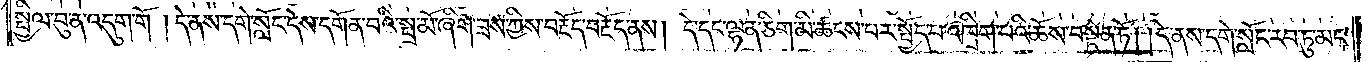སྤྱིལ་བུ་ན་འདུག་གོ །དེ་ནས་དགེ་སློང་དེས་དགོན་བའི་སྤྲ་མོ་ཞིག་ཟས་ཀྱིས་བརྔོད་བརྗོད་ནས། དེ་དང་ལྷན་ཅིག་མི་ཚངས་པར་སྤྱོད་པ་འཁྲིག་པའི་ཆོས་བསྟེན་ཏོ། །དེ་ནས་དགེ་སློང་རབ་ཏུ་མང་
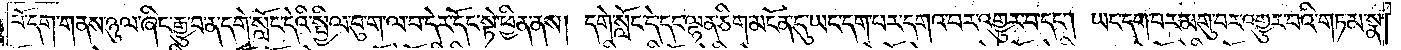པོ་དག་གནས་ཉུལ་ཞིང་རྒྱུ་བ་ན་དགེ་སློང་དེའི་སྤྱིལ་བུ་ག་ལ་བ་དེར་དོང་སྟེ་ཕྱིན་ནས། དགེ་སློང་དེ་དང་ལྷན་ཅིག་མངོན་དུ་ཡང་དག་པར་དགའ་བར་འགྱུར་བ་དང༌། ཡང་དག་པར་མགུ་བར་འགྱུར་བའི་གཏམ་སྣ་
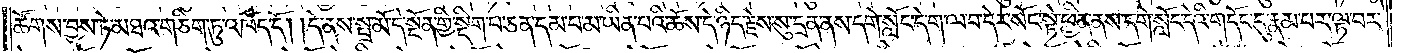ཚོགས་བྱས་ཏེ་མཐའ་གཅིག་ཏུ་འཁོད་དོ། །དེ་ནས་སྤྲ་མོ་དེ་སྔོན་གྱི་སྡིག་པ་ཅན་དམ་པ་མ་ཡིན་པའི་ཆོས་དེ་ཉིད་རྗེས་སུ་དྲན་ནས་དགེ་སློང་དེ་ག་ལ་བ་དེར་སོང་སྟེ་ཕྱིན་ནས་དགེ་སློང་དེའི་གདོང་དུ་རྣམ་པར་ལྟ་བར་
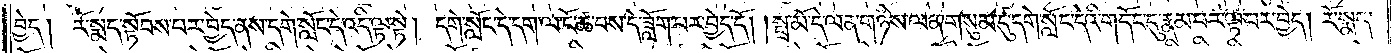བྱེད། རོ་སྨད་སྟོབས་པར་བྱེད་ནས་དགེ་སློང་དེ་འདི་ལྟ་སྟེ། དགེ་སློང་དེ་དག་ལ་ངོ་ཚ་བས་དེ་ཟློག་པར་བྱེད་དོ། །སྤྲ་མོ་དེ་ལན་གཉིས་ལན་གསུམ་དུ་དགེ་སློང་དེའི་གདོང་དུ་རྣམ་པར་ལྟ་བར་བྱེད། རོ་སྨད་
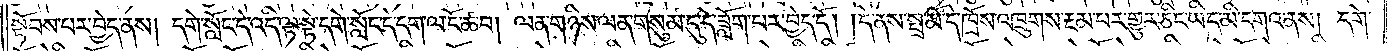སྟོབས་པར་བྱེད་ནས། དགེ་སློང་དེ་འདི་ལྟ་སྟེ་དགེ་སློང་དེ་དག་ལ་ངོ་ཚ་བ། ལན་གཉིས་ལན་གསུམ་དུ་དེ་ཟློག་པར་བྱེད་དོ། །དེ་ནས་སྤྲ་མོ་དེ་ཁྲོས་འཁྲུགས་རྔམ་པར་གྱུར་ཅིང་ཡིད་མི་དགའ་ནས། དགེ་
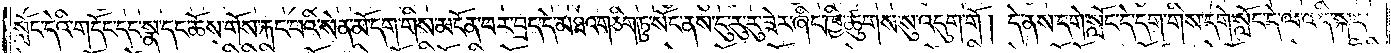སློང་དེའི་གདོང་དང་སྣ་དང་ཆོས་གོས་རྐང་པའི་སེན་མོ་དག་གིས་མངོན་པར་བྲད་དེ་མཐའ་གཅིག་ཏུ་སོང་ནས་ངུ་རུ་རུ་ཟེར་ཞིང་ཁྱི་ཚུགས་སུ་འདུག་གོ །དེ་ནས་དགེ་སློང་དེ་དག་གིས་དགེ་སློང་དེ་ལ་འདི་སྐད་
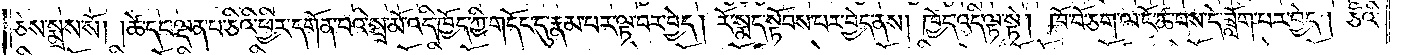ཅེས་སྨྲས་སོ། །ཚེ་དང་ལྡན་པ་ཅིའི་ཕྱིར་དགོན་པའི་སྤྲ་མོ་འདི་ཁྱོད་ཀྱི་གདོང་དུ་རྣམ་པར་ལྟ་བར་བྱེད། རོ་སྨད་སྟོབས་པར་བྱེད་ནས། ཁྱོད་འདི་ལྟ་སྟེ། ཁོ་བོ་ཅག་ལ་ངོ་ཚ་བས་དེ་ཟློག་པར་བྱེད། ཅིའི་
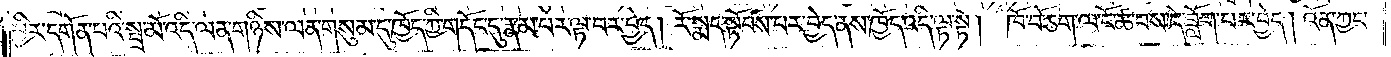ཕྱིར་དགོན་པའི་སྤྲ་མོ་འདི་ལན་གཉིས་ལན་གསུམ་དུ་ཁྱོད་ཀྱི་གདོང་དུ་རྣམ་པར་ལྟ་བར་བྱེད། རོ་སྨད་སྟོབས་པར་བྱེད་ནས་ཁྱོད་འདི་ལྟ་སྟེ། ཁོ་བོ་ཅག་ལ་ངོ་ཚ་བས་དེ་ཟློག་པར་བྱེད། འོན་ཀྱང་
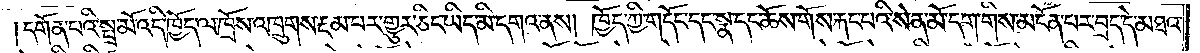དགོན་པའི་སྤྲ་མོ་འདི་ཁྱོད་ལ་ཁྲོས་འཁྲུགས་རྔམ་པར་གྱུར་ཅིང་ཡིད་མི་དགའ་ནས། ཁྱོད་ཀྱི་གདོང་དང་སྣ་དང་ཆོས་གོས་རྐང་པའི་སེན་མོ་དག་གིས་མངོན་པར་བྲད་དེ་མཐའ་
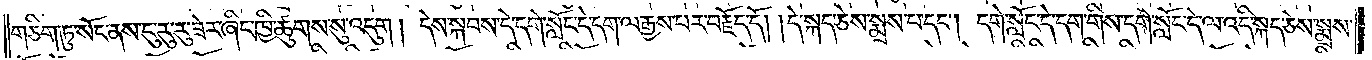གཅིག་ཏུ་སོང་ནས་ངུ་རུ་རུ་ཟེར་ཞིང་ཁྱི་ཚུགས་སུ་འདུག །དེས་སྐབས་དེ་དགེ་སློང་དེ་དག་ལ་རྒྱས་པར་བརྗོད་དོ། །དེ་སྐད་ཅེས་སྨྲས་པ་དང༌། དགེ་སློང་དེ་དག་གིས་དགེ་སློང་དེ་ལ་འདི་སྐད་ཅེས་སྨྲས་
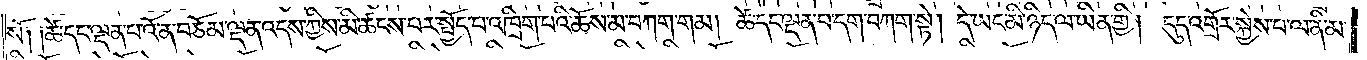སོ༑ ༑ཚེ་དང་ལྡན་པ་འོ་ན་བཅོམ་ལྡན་འདས་ཀྱིས་མི་ཚངས་པར་སྤྱོད་པ་འཁྲིག་པའི་ཆོས་མ་བཀག་གམ། ཚེ་དང་ལྡན་པ་དག་བཀག་སྟེ། དེ་ཡང་མི་ཉིད་ལ་ཡིན་གྱི། དུད་འགྲོར་སྐྱེས་པ་ལ་ནི་མ་
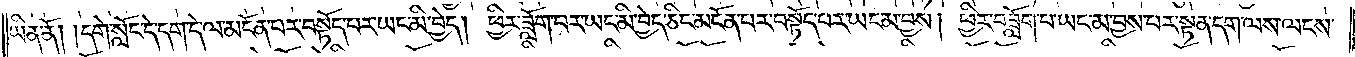ཡིན་ནོ། །དགེ་སློང་དེ་དག་དེ་ལ་མངོན་པར་བསྟོད་པར་ཡང་མི་བྱེད། ཕྱིར་ཟློག་པར་ཡང་མི་བྱེད་ཅིང་མངོན་པར་བསྟོད་པར་ཡང་མ་བྱས། ཕྱིར་བཟློག་པ་ཡང་མ་བྱས་པར་སྟན་དག་ལས་ལངས་
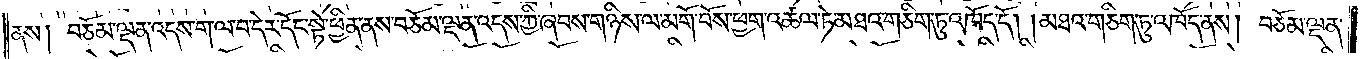ནས། བཅོམ་ལྡན་འདས་ག་ལ་བ་དེར་དོང་སྟེ་ཕྱིན་ནས་བཅོམ་ལྡན་འདས་ཀྱི་ཞབས་གཉིས་ལ་མགོ་བོས་ཕྱག་འཚལ་ཏེ་མཐའ་གཅིག་ཏུ་འཁོད་དོ། །མཐའ་གཅིག་ཏུ་འཁོད་ནས། བཅོམ་ལྡན་
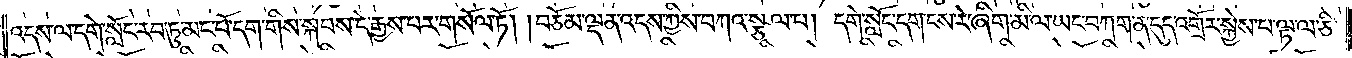འདས་ལ་དགེ་སློང་རབ་ཏུ་མང་པོ་དག་གིས་སྐབས་དེ་རྒྱས་པར་གསོལ་ཏོ། །བཅོམ་ལྡན་འདས་ཀྱིས་བཀའ་སྩལ་པ། དགེ་སློང་དག་ངས་རེ་ཞིག་མི་ལ་ཡང་བཀག་ན་དུད་འགྲོར་སྐྱེས་པ་ལྟ་ལ་ཅི་
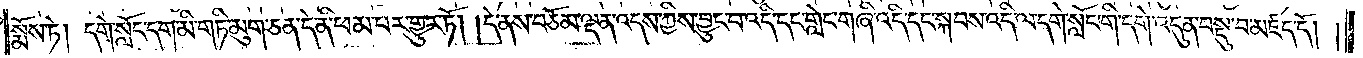སྨོས་ཏེ། དགེ་སློང་དག་མི་གཏི་མུག་ཅན་དེ་ནི་ཕམ་པར་གྱུར་ཏོ། །དེ་ནས་བཅོམ་ལྡན་འདས་ཀྱིས་བྱུང་བ་འདི་དང་གླེང་གཞི་འདི་དང་སྐབས་འདི་ལ་དགེ་སློང་གི་དགེ་འདུན་བསྡུ་བ་མཛད་དོ། །
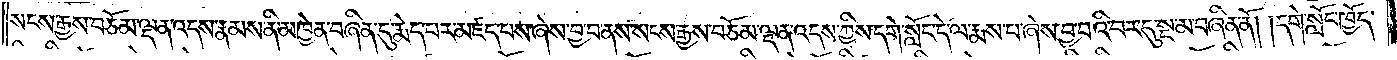སངས་རྒྱས་བཅོམ་ལྡན་འདས་རྣམས་ནི་མཁྱེན་བཞིན་དུ་རྨེད་པར་མཛད་པས་ཞེས་བྱ་བ་ནས་སངས་རྒྱས་བཅོམ་ལྡན་འདས་ཀྱིས་དགེ་སློང་དེ་ལ་རྨས་པ་ཞེས་བྱ་བའི་བར་དུ་སྔ་མ་བཞིན་ནོ། །དགེ་སློང་ཁྱོད་
